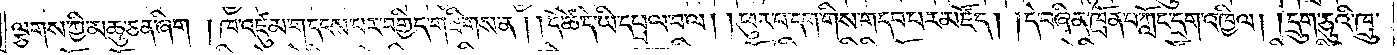ལྕགས་ཀྱི་མཆུ་ཅན་ཞིག །ཁ་འཛུམ་གདངས་པར་བགྱིད་གཟིགས་ན། །དེ་ཚེ་དེ་ཡི་དཔྲལ་བ་ལ། །ཕུར་པ་དག་གིས་གདབ་པར་མཛོད། །དེ་བཞིན་ཁྲོན་པ་ཀློང་དྲག་འཁྱིལ། །དྲུག་ཅུའི་ཁྲུ་
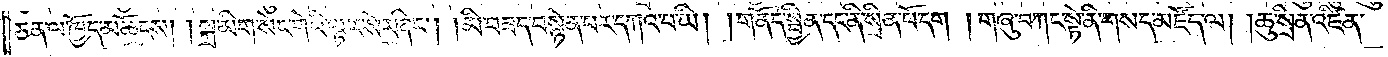ཅན་ལ་ཁྱོད་མཆོངས། །སྐྲ་མིག་སེང་གེའི་ལྟར་སེར་ཞིང༌། །མི་བཟད་བསྙེན་པར་དཀའ་བ་ཡི། །གནོད་སྦྱིན་དང་ནི་སྲིན་པོ་དག ། །གཞུ་བཀང་སྟེ་ནི་གསད་མཛོད་ལ། །ཆུ་སྲིན་འཛིན་
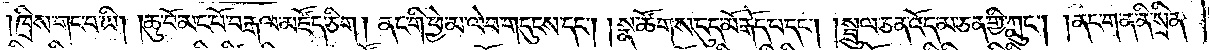ཁྲིས་གང་བ་ཡི། །ཆུ་བོ་མང་པོ་བརྒལ་མཛོད་ཅིག། ནང་གི་ཕྱེ་མ་ལེབ་གདུངས་དང༌། །སྣ་ཚོགས་དུད་མོ་རྒོད་པ་དང༌། །སྦྲུལ་ཅན་འོད་མ་ཅན་གྱི་ཀླུང༌། །ནང་ག་ན་ནི་སྲིན་
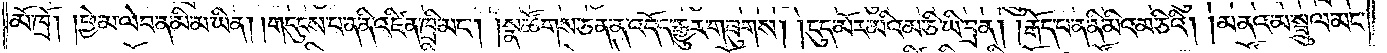མོ་ཁྲོ། །ཕྱེ་མ་ལེབ་ན་མི་མ་ཡིན། །གདུངས་པ་ན་ནི་འཛིན་ཁྲི་མང༌། །སྣ་ཚོགས་ཅན་ན་འདོད་རྒྱུར་གཟུགས། །དུད་མོར་མའི་མ་ཅི་ཡི་བྲན། །རྒོད་པ་ན་ནི་མིའམ་ཅིའི། མནའ་མ་སྦྲུལ་མང་
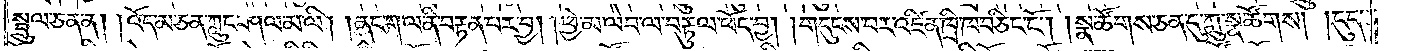སྦྲུལ་ཅན་ན། །འོད་མ་ཅན་ཀླུང་ཤལ་མ་ཡི། །ནང་ག་ལ་ནི་བརྟན་པར་བྱ། །ཕྱེ་མ་ལེབ་ལ་བརྟུལ་ཕོད་བྱ། །གདུངས་པར་འཛིན་ཁྲི་ཁ་བཅིང་ངོ༌། །སྣ་ཚོགས་ཅན་དུ་ཀླུ་སྣ་ཚོགས། །དུད་
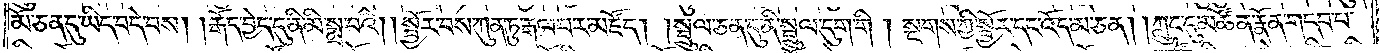མོ་ཅན་དུ་ཡིད་བདེ་བས། །རྒོད་བྱེད་དུ་ནི་མི་སྨྲ་བའི། །སྦྱོར་བས་ཀུན་ཏུ་རྒལ་བར་མཛོད། །སྦྲུལ་ཅན་དུ་ནི་སྦྲུལ་དུག་གི། སྔགས་ཀྱི་སྦྱོར་དང་འོད་མ་ཅན། །ཀླུང་དུ་མཚོན་རྣོན་གདབ་པ་
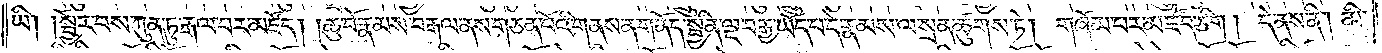ཡི། །སྦྱོར་བས་ཀུན་ཏུ་རྒལ་བར་མཛོད། །ཆུ་བོ་རྣམས་བརྒལ་ནས་གཅན་པོའི་གནས་ན་གནོད་སྦྱིན་ལྔ་བརྒྱ་ཡོད་པ་དེ་རྣམས་ལ་སྲན་ཚུགས་ཏེ། གཞོམ་པར་མཛོད་ཅིག། དེ་ནས་ནི། མི་
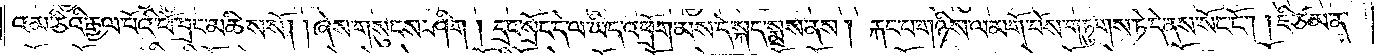འམ་ཅིའི་རྒྱལ་པོའི་ཕོ་བྲང་མཆིས་སོ། །ཞེས་གསུངས་ཤིག། དྲང་སྲོང་དེ་ལ་ཡིད་འཕྲོག་མས་དེ་སྐད་སྨྲས་ནས། རྐང་པ་གཉིས་ལ་མགོ་བོས་གཏུགས་ཏེ་དེ་ནས་སོང་ངོ༌། །ཇི་ཙམ་ན་
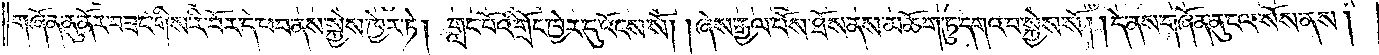གཞོན་ནུ་ནོར་བཟང་གིས་རི་བོར་དེ་ཕབ་ནས་སྐྱེས་ཁྱེར་ཏེ། གླང་པོའི་གྲོང་ཁྱེར་དུ་འོངས་སོ། །ཞེས་རྒྱལ་པོས་ཐོས་ནས་མཆོག་ཏུ་དགའ་བ་སྐྱེས་སོ། །དེ་ནས་གཞོན་ནུ་ངལ་སོས་ནས།
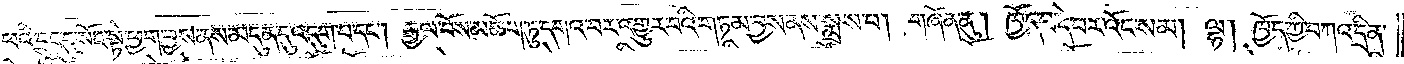ཕའི་དྲུང་དུ་སོང་སྟེ་ཕྱག་བྱས་ནས་མདུན་དུ་འདུག་པ་དང༌། རྒྱལ་པོས་མཆོག་ཏུ་དགའ་བར་འགྱུར་བའི་གཏམ་བྱས་ནས་སྨྲས་པ། གཞོན་ནུ། ཁྱོད་བདེ་བར་འོང་སམ། ལྷ། ཁྱོད་ཀྱི་བཀའ་དྲིན་
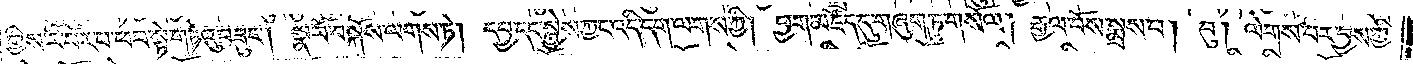གྱིས་རི་བོར་པ་ཕབ་སྟེ་གཏེའུ་བཟུང༌། སྣ་བོ་བསྐོས་ལགས་ཏེ། དཔྱ་དང་སྐྱེས་ཀྱང་འདི་དག་ལགས་ཀྱི། ཕྱག་མཛོད་དུ་གཞུག་ཏུ་གསོལ། རྒྱལ་པོས་སྨྲས་པ། བུ། ལེགས་པར་བྱས་ཀྱི་
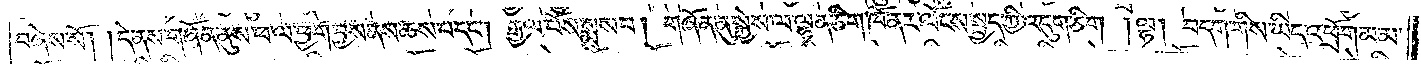བཞེས་སོ། །དེ་ནས་གཞོན་ནུས་ཕ་ལ་ཕྱག་བྱས་ནས་ཆས་པ་དང༌། རྒྱལ་པོས་སྨྲས་པ། གཞོན་ནུ་སྐྱེས་ལ་ལྷན་ཅིག་ཁོ་ནར་ལོངས་སྤྱད་ཀྱི་འདུག་ཅིག །ལྷ། བདག་གིས་ཡིད་འཕྲོག་མ་མ་
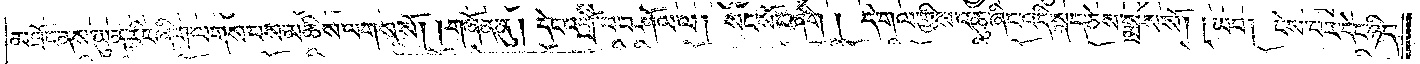མཐོང་ནས་ཡུན་རིང་ཞིག་ལགས་པས་མཆིས་ལགས་སོ། །གཞོན་ནུ། དེང་འགྲོ་བ་བཤོལ་ལ། སང་སོང་ཞིག། དེ་གལ་གྱིས་འཆུ་ཞིང་འདི་སྐད་ཅེས་སྨྲས་སོ། །ཡབ། ངེས་པར་དེར་ཉིད་
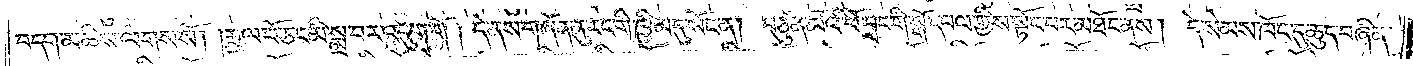བདག་མཆིས་ལགས་སོ། །རྒྱལ་པོ་ཅང་མི་སྨྲ་བར་འདུག་གོ །དེ་ནས་གཞོན་ནུ་རང་གི་ཁྱིམ་དུ་སོང་ན། བཙུན་མོའི་ཕོ་བྲང་གི་སྒོ་དཔལ་གྱིས་སྟོང་པར་མཐོང་ནས། དེ་སེམས་ཁོང་དུ་ཆུད་བཞིན་
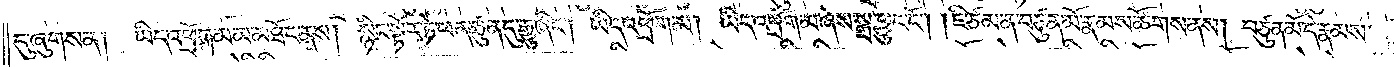དུ་ཞུགས་ན། ཡིད་འཕྲོག་མ་མ་མཐོང་ནས། སྙིང་སྟོར་ཏེ་ཕན་ཚུན་དུ་རྒྱུ་ཞིང༌། ཡིད་འཕྲོག་མ། ཡིད་འཕྲོག་མ་ཞེས་སྒྲ་ཕྱུང་ངོ༌། །ཇི་ཙམ་ན་བཙུན་མོ་རྣམས་ཚོགས་ནས། བཙུན་མོ་དེ་རྣམས་
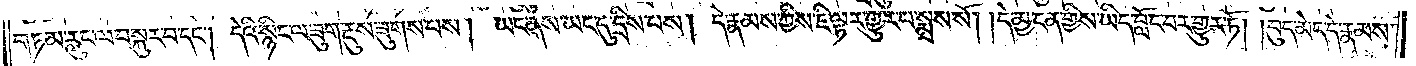གཏམ་རླུང་ལ་བསྐུར་བ་དང༌། དེའི་སྙིང་ལ་ཟུག་རྔུས་ཟུགས་པས། ཡང་ནས་ཡང་དུ་དྲིས་པས། དེ་རྣམས་ཀྱིས་ཇི་ལྟར་གྱུར་པ་སྨྲས་སོ། །དེ་མྱ་ངན་གྱིས་ཡིད་བློང་བར་གྱུར་ཏོ། །བུད་མེད་དེ་རྣམས་
